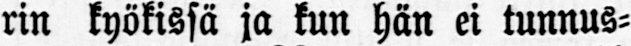rin kyökissä ja kun hän ei tunnus-
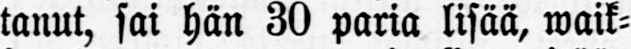tanut, sai hän 30 paria lisää, waik-
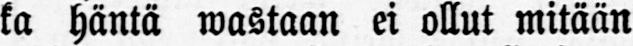ka häntä wastaan ei ollut mitään
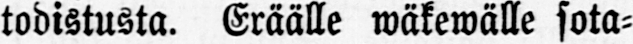todistusta. Eräälle wäkewälle sota-
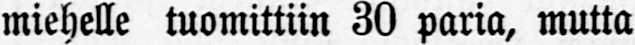miehelle tuomittiin 30 paria, mutta
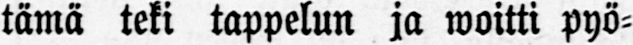tämä teki tappelun ja woitti pyö-
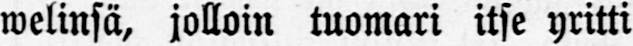welinsä, jolloin tuomari itse yritti
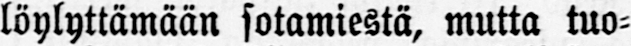löylyttämään sotamiestä, mutta tuo-
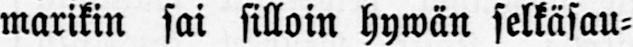marikin sai silloin hywän selkäsau-
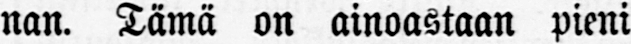nan. Tämä on ainoastaan pieni
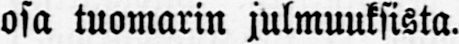osa tuomarin julmuuksista.
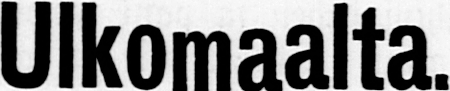Ulkomaalta.
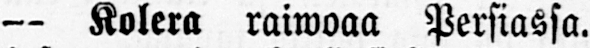— Kolera raiwoaa Persiassa.
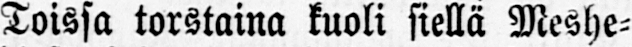Toissa torstaina kuoli siellä Meshe-
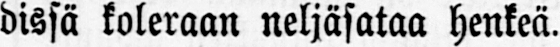dissä koleraan neljäsataa henkeä.
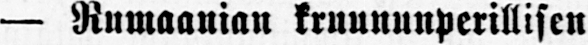— Rumaanian kruununperillisen
